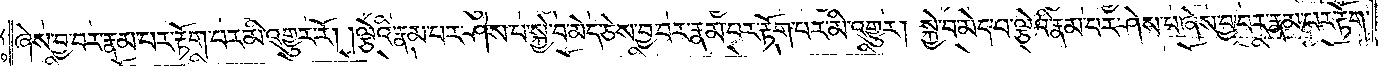ཞེས་བྱ་བར་རྣམ་པར་རྟོག་པར་མི་འགྱུར་རོ། །ལྕེའི་རྣམ་པར་ཤེས་པ་སྐྱེ་བ་མེད་ཅེས་བྱ་བར་རྣམ་པར་རྟོག་པར་མི་འགྱུར། སྐྱེ་བ་མེད་པ་ལྕེའི་རྣམ་པར་ཤེས་པ་ཞེས་བྱ་བར་རྣམ་པར་རྟོག་
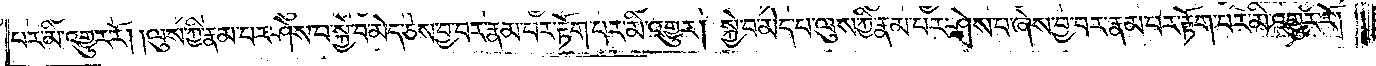པར་མི་འགྱུར་རོ། །ལུས་ཀྱི་རྣམ་པར་ཤེས་པ་སྐྱེ་བ་མེད་ཅེས་བྱ་བར་རྣམ་པར་རྟོག་པར་མི་འགྱུར། སྐྱེ་བ་མེད་པ་ལུས་ཀྱི་རྣམ་པར་ཤེས་པ་ཞེས་བྱ་བར་རྣམ་པར་རྟོག་པར་མི་འགྱུར་རོ། །
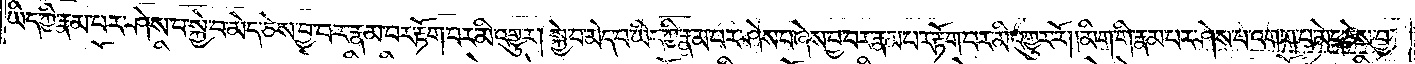ཡིད་ཀྱི་རྣམ་པར་ཤེས་པ་སྐྱེ་བ་མེད་ཅེས་བྱ་བར་རྣམ་པར་རྟོག་པར་མི་འགྱུར། སྐྱེ་བ་མེད་པ་ཡིད་ཀྱི་རྣམ་པར་ཤེས་པ་ཞེས་བྱ་བར་རྣམ་པར་རྟོག་པར་མི་འགྱུར་རོ། །མིག་གི་རྣམ་པར་ཤེས་པ་འགག་པ་མེད་ཅེས་བྱ་
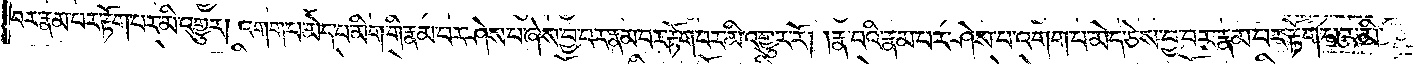བར་རྣམ་པར་རྟོག་པར་མི་འགྱུར། འགག་པ་མེད་པ་མིག་གི་རྣམ་པར་ཤེས་པ་ཞེས་བྱ་བར་རྣམ་པར་རྟོག་པར་མི་འགྱུར་རོ། །རྣ་བའི་རྣམ་པར་ཤེས་པ་འགག་པ་མེད་ཅེས་བྱ་བར་རྣམ་པར་རྟོག་པར་མི་
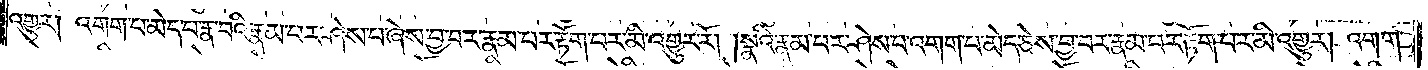འགྱུར། འགག་པ་མེད་པ་རྣ་བའི་རྣམ་པར་ཤེས་པ་ཞེས་བྱ་བར་རྣམ་པར་རྟོག་པར་མི་འགྱུར་རོ། །སྣའི་རྣམ་པར་ཤེས་པ་འགག་པ་མེད་ཅེས་བྱ་བར་རྣམ་པར་རྟོག་པར་མི་འགྱུར། འགག་
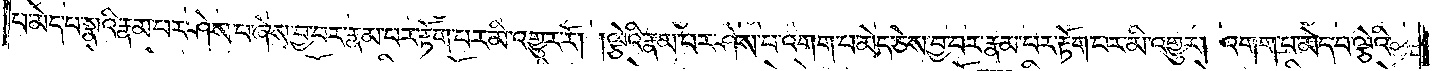པ་མེད་པ་སྣའི་རྣམ་པར་ཤེས་པ་ཞེས་བྱ་བར་རྣམ་པར་རྟོག་པར་མི་འགྱུར་རོ། །ལྕེའི་རྣམ་པར་ཤེས་པ་འགག་པ་མེད་ཅེས་བྱ་བར་རྣམ་པར་རྟོག་པར་མི་འགྱུར། འགག་པ་མེད་པ་ལྕེའི་
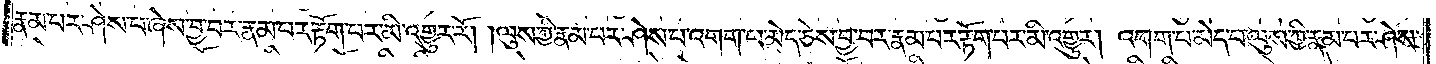རྣམ་པར་ཤེས་པ་ཞེས་བྱ་བར་རྣམ་པར་རྟོག་པར་མི་འགྱུར་རོ། །ལུས་ཀྱི་རྣམ་པར་ཤེས་པ་འགག་པ་མེད་ཅེས་བྱ་བར་རྣམ་པར་རྟོག་པར་མི་འགྱུར། འགག་པ་མེད་པ་ལུས་ཀྱི་རྣམ་པར་ཤེས་
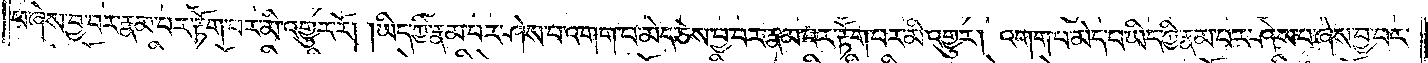པ་ཞེས་བྱ་བར་རྣམ་པར་རྟོག་པར་མི་འགྱུར་རོ། །ཡིད་ཀྱི་རྣམ་པར་ཤེས་པ་འགག་པ་མེད་ཅེས་བྱ་བར་རྣམ་པར་རྟོག་པར་མི་འགྱུར། འགག་པ་མེད་པ་ཡིད་ཀྱི་རྣམ་པར་ཤེས་པ་ཞེས་བྱ་བར་
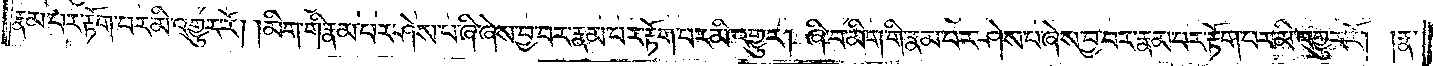རྣམ་པར་རྟོག་པར་མི་འགྱུར་རོ། །མིག་གི་རྣམ་པར་ཤེས་པ་ཞི་ཞེས་བྱ་བར་རྣམ་པར་རྟོག་པར་མི་འགྱུར། ཞི་བ་མིག་གི་རྣམ་པར་ཤེས་པ་ཞེས་བྱ་བར་རྣམ་པར་རྟོག་པར་མི་འགྱུར་རོ། །རྣ་
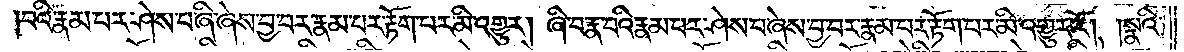བའི་རྣམ་པར་ཤེས་པ་ཞི་ཞེས་བྱ་བར་རྣམ་པར་རྟོག་པར་མི་འགྱུར། ཞི་བ་རྣ་བའི་རྣམ་པར་ཤེས་པ་ཞེས་བྱ་བར་རྣམ་པར་རྟོག་པར་མི་འགྱུར་རོ། །སྣའི་
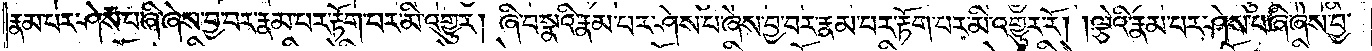རྣམ་པར་ཤེས་པ་ཞི་ཞེས་བྱ་བར་རྣམ་པར་རྟོག་པར་མི་འགྱུར། ཞི་བ་སྣའི་རྣམ་པར་ཤེས་པ་ཞེས་བྱ་བར་རྣམ་པར་རྟོག་པར་མི་འགྱུར་རོ། །ལྕེའི་རྣམ་པར་ཤེས་པ་ཞི་ཞེས་བྱ་
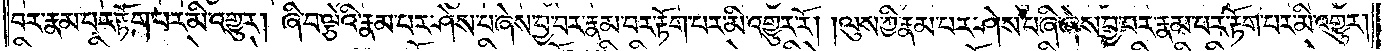བར་རྣམ་པར་རྟོག་པར་མི་འགྱུར། ཞི་བ་ལྕེའི་རྣམ་པར་ཤེས་པ་ཞེས་བྱ་བར་རྣམ་པར་རྟོག་པར་མི་འགྱུར་རོ། །ལུས་ཀྱི་རྣམ་པར་ཤེས་པ་ཞི་ཞེས་བྱ་བར་རྣམ་པར་རྟོག་པར་མི་འགྱུར།
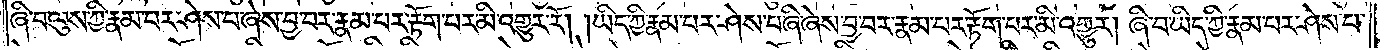ཞི་བ་ལུས་ཀྱི་རྣམ་པར་ཤེས་པ་ཞེས་བྱ་བར་རྣམ་པར་རྟོག་པར་མི་འགྱུར་རོ། །ཡིད་ཀྱི་རྣམ་པར་ཤེས་པ་ཞི་ཞེས་བྱ་བར་རྣམ་པར་རྟོག་པར་མི་འགྱུར། ཞི་བ་ཡིད་ཀྱི་རྣམ་པར་ཤེས་པ་
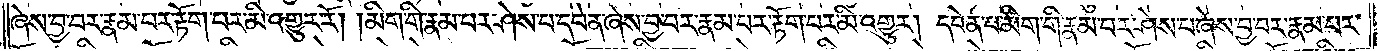ཞེས་བྱ་བར་རྣམ་པར་རྟོག་པར་མི་འགྱུར་རོ། །མིག་གི་རྣམ་པར་ཤེས་པ་དབེན་ཞེས་བྱ་བར་རྣམ་པར་རྟོག་པར་མི་འགྱུར། དབེན་པ་མིག་གི་རྣམ་པར་ཤེས་པ་ཞེས་བྱ་བར་རྣམ་པར་
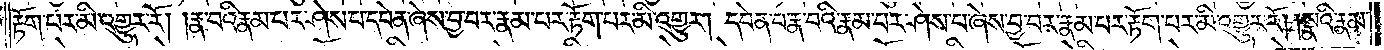རྟོག་པར་མི་འགྱུར་རོ། །རྣ་བའི་རྣམ་པར་ཤེས་པ་དབེན་ཞེས་བྱ་བར་རྣམ་པར་རྟོག་པར་མི་འགྱུར། དབེན་པ་རྣ་བའི་རྣམ་པར་ཤེས་པ་ཞེས་བྱ་བར་རྣམ་པར་རྟོག་པར་མི་འགྱུར་རོ། །སྣའི་རྣམ་
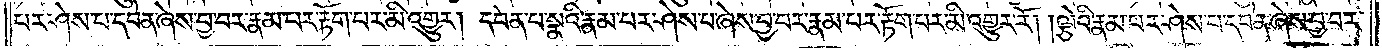པར་ཤེས་པ་དབེན་ཞེས་བྱ་བར་རྣམ་པར་རྟོག་པར་མི་འགྱུར། དབེན་པ་སྣའི་རྣམ་པར་ཤེས་པ་ཞེས་བྱ་བར་རྣམ་པར་རྟོག་པར་མི་འགྱུར་རོ། །ལྕེའི་རྣམ་པར་ཤེས་པ་དབེན་ཞེས་བྱ་བར་
